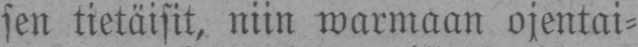sen tietäisit, niin warmaan ojentai-
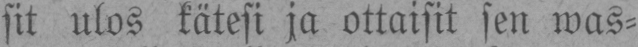sit ulos kätesi ja ottaisit sen was-
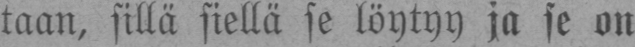taan, sillä siellä se löytyy ja se on
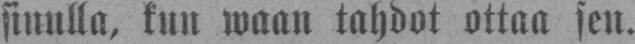sinulla, kun waan tahdot ottaa sen.
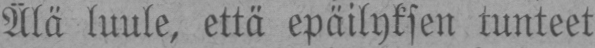Älä luule, että epäilyksen tunteet
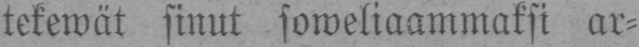tekewät sinut soweliaammaksi ar-
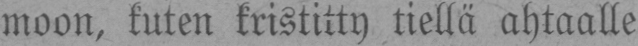moon, kuten kristitty tiellä ahtaalle
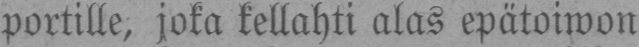portille, joka kellahti alas epätoiwon
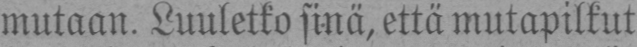mutaan. Luuletko sinä, että mutapilkut
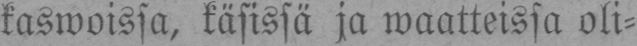kaswoissa, käsissä ja waatteissa oli-
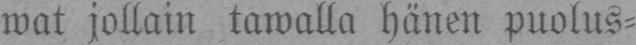wat jollain tawalla hänen puolus-
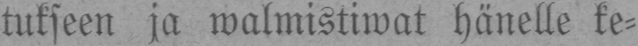tukseen ja walmistiwat hänelle ke-
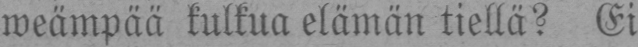weämpää kulkua elämän tiellä? Ei
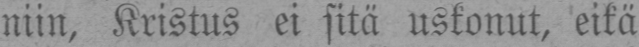niin, Kristus ei sitä uskonut, eikä
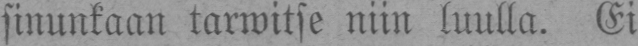sinunkaan tarwitse niin luulla. Ei
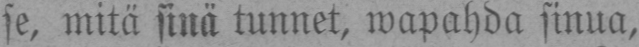se, mitä sinä tunnet, wapahda sinua,
